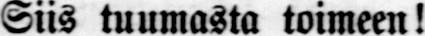Siis tuumasta toimeen!
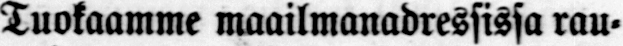Tuokaamme maailmanadressissa rau-
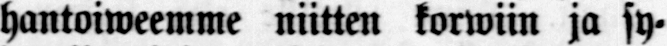hantoiweemme niitten korwiin ja sy-
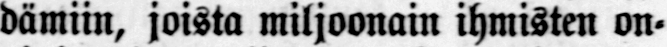dämiin, joista miljoonain ihmisten on-
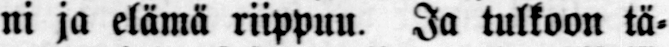ni ja elämä riippuu. Ja tulkoon tä-
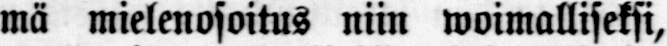mä mielenosoitus niin woimalliseksi,
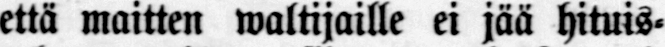että maitten waltijaille ei jää hiluis-
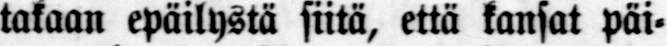takaan epäilystä siitä, että kansat päi-
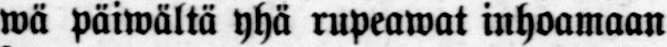wä päiwältä yhä rupeawat inhoamaan
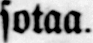sotaa.
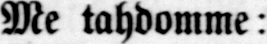Me tahdomme:
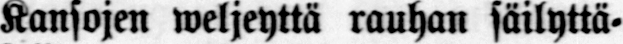Kansojen weljeyttä rauhan säilyttä-
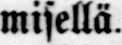misellä.
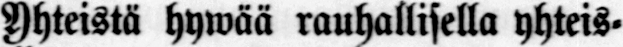Yhteistä hywää rauhallisella yhteis-
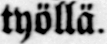työllä.
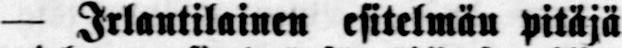— Irlantilainen esitelmän pitäjä
